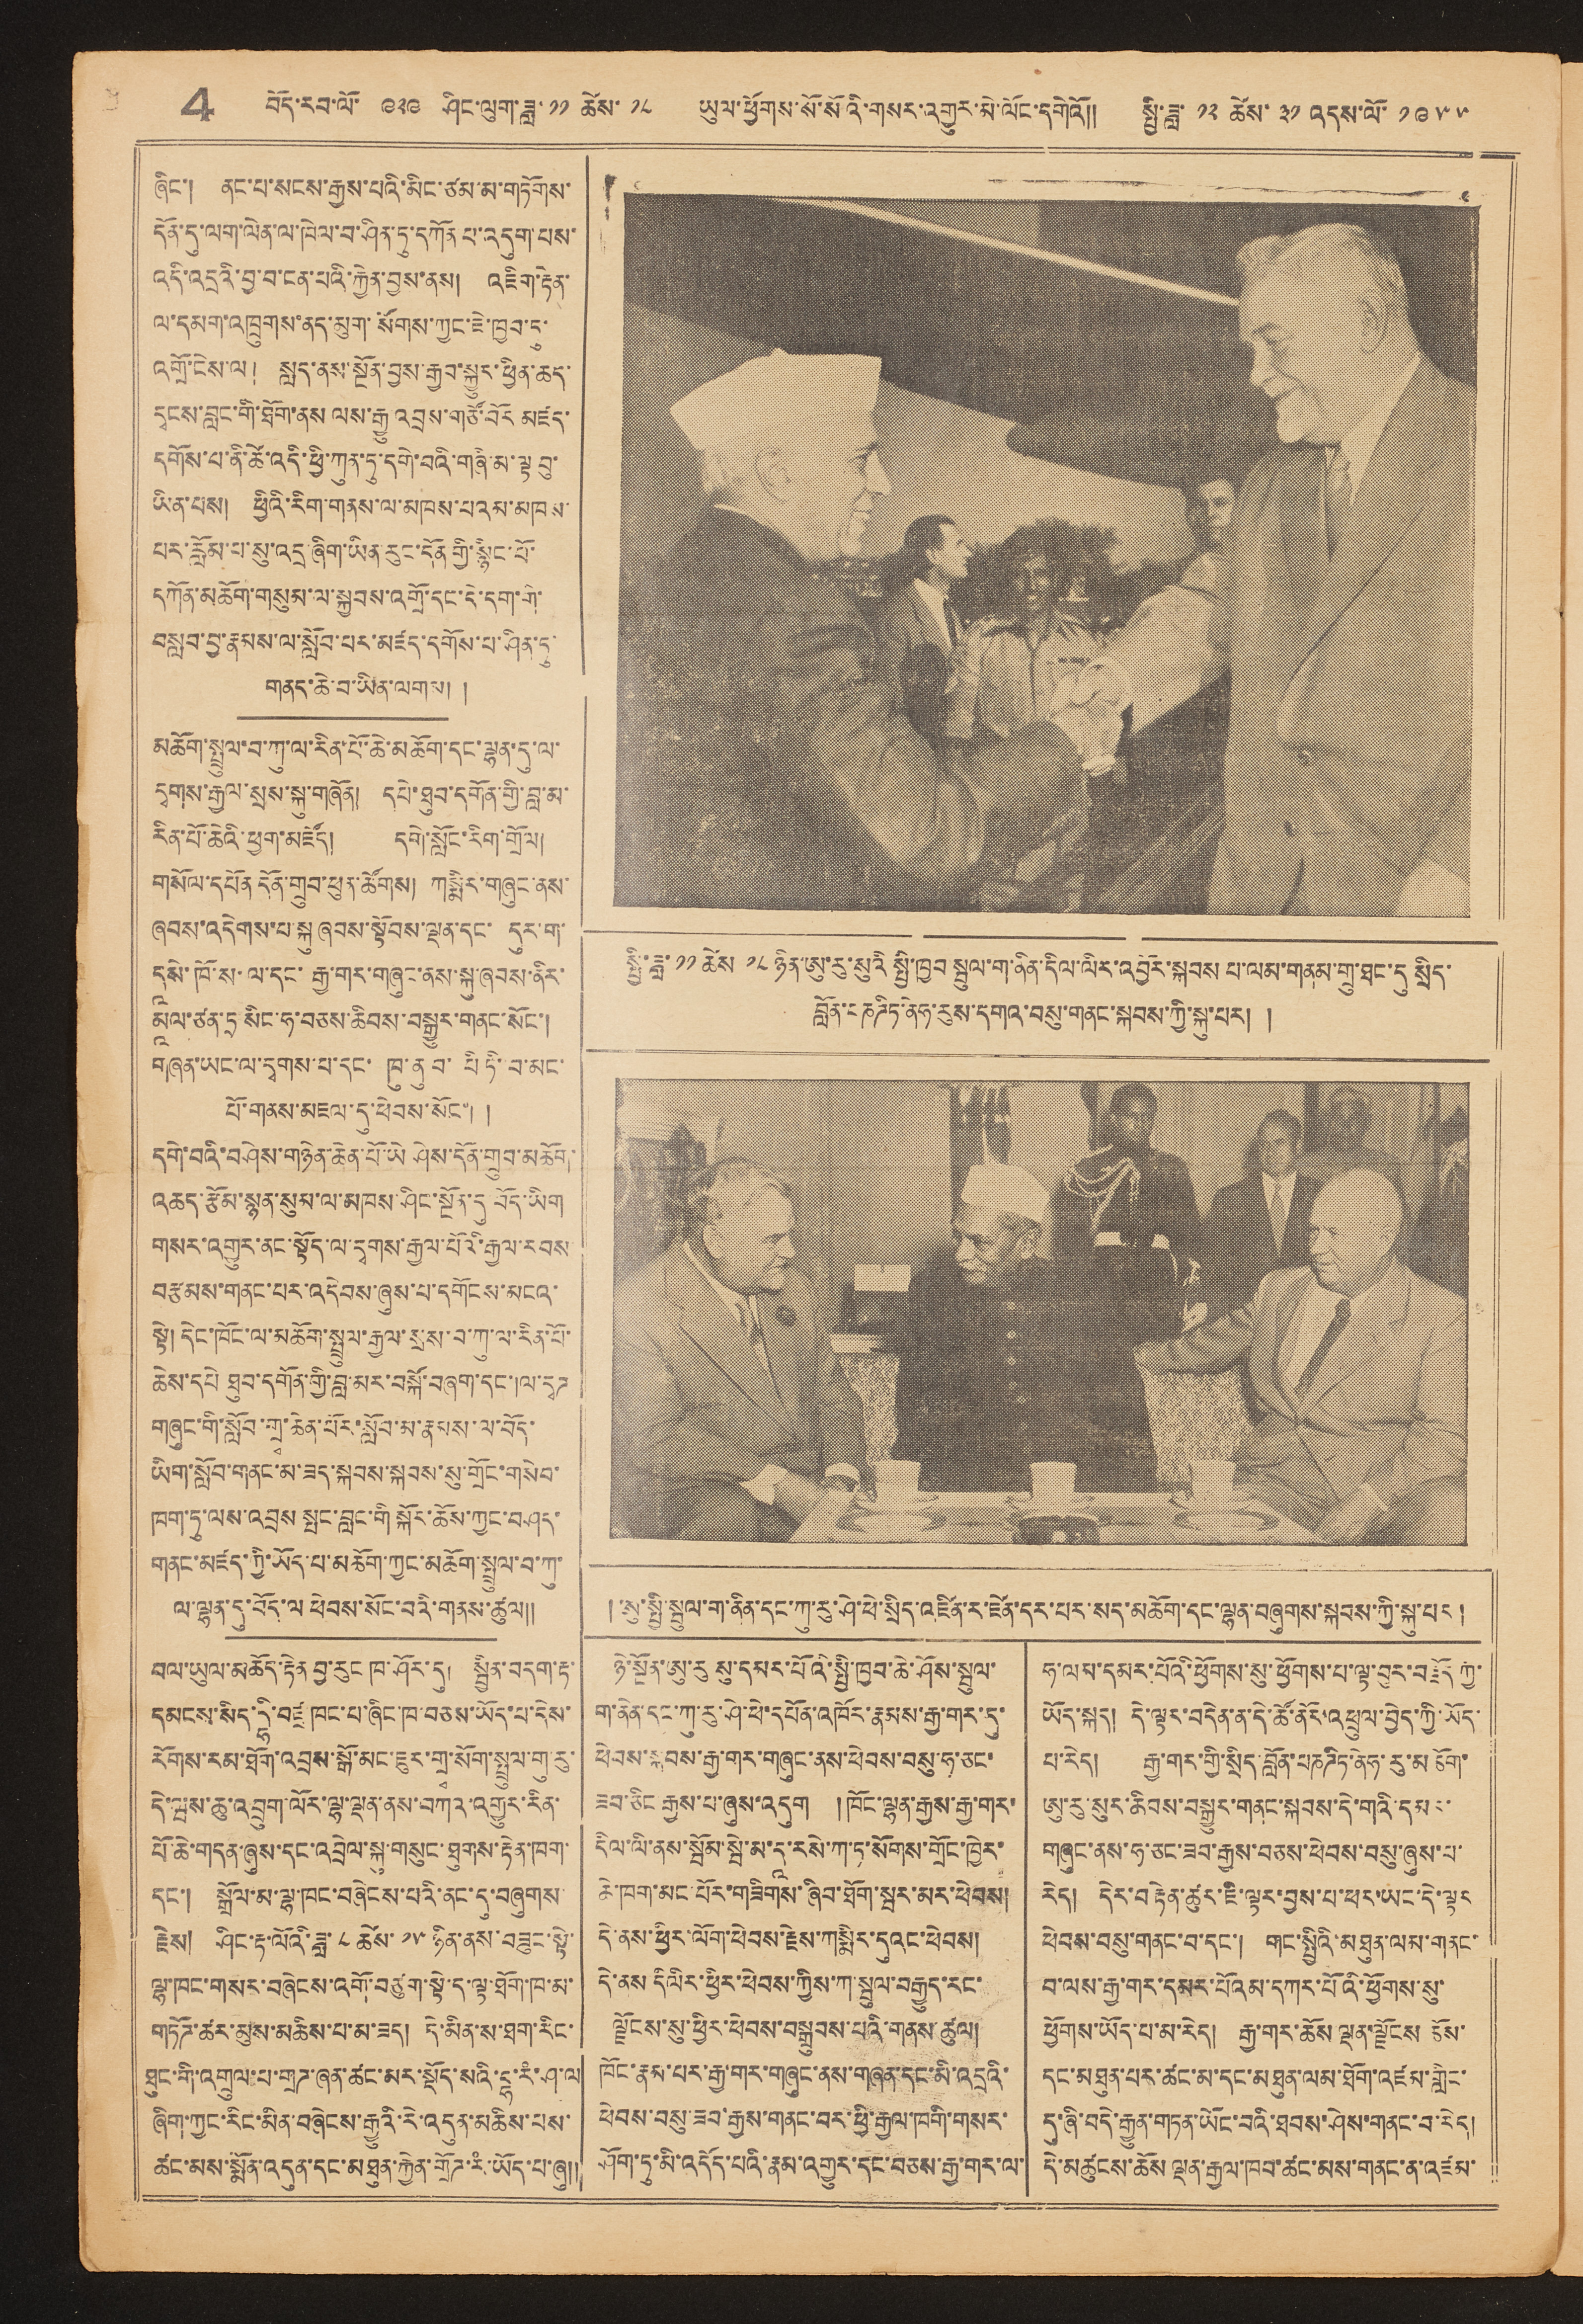4 བོད་རབ་ལོ་ ༩༢༩ ཤིང་ལུག་ཟླ་ ༡༡ ཚེས་ ༡༨ ཡུལ་ཕྱོགས་སོ་སོའི་གསར་འགྱུར་མེ་ལོང་དགེའོ།། སྤྱི་ཟླ་ ༡༢ ཚེས་ ༣༡ འདས་ལོ་ ༡༩༥༥
ཞིང་། ནང་པ་སངས་རྒྱས་པའི་མིང་ཙམ་མ་གཏོགས་
དོན་དུ་ལག་ལེན་ལ་ཁེལ་བ་ཤིན་ཏུ་དཀོན པ་འདུག་པས་
འདི་འདྲའི་བྱ་བ་ངན་པའི་རྐྱེན་བྱས་ནས། འཇིག་རྟེན་
ལ་དམག་འཁྲུགས་ནད་མུག་སོགས་ཀྱང་ཇེ་ཁྱབ་ཏུ་
འགྲོ་ངེས་ལ །  སླད་ནས་སྔོན་བྱས་རྒྱབ་སྐྱུར་ཕྱིན་ཆད་
དྭངས་བླང་གི་ཐོག་ནས ལས་རྒྱུ་འབྲས་གཙོ་བོར མཛད་
དགོས་པ་ནི་ཚེ་འདི་ཕྱི་ཀུན་ཏུ་དགེ་བའི་གཞི་མ་ལྟ བུ་
ཡིན་པས། ཕྱིའི་རིག་གནས་ལ་མཁས་པའམ་མཁས་
པར་རློམ་པ་སུ་འདྲ་ཞིག་ཡིན་རུང་དོན་གྱི་སྙིང་པོ་
དཀོན་མཆོག་གསུམ་ལ་སྐྱབས་འགྲོ་དང་དེ་དག་གི་
བསླབ་བྱ་རྣམས་ལ་སློབ་པར་མཛད་དགོས་པ་ཤིན་ཏུ་
གནད་ཆེ་བ་ཡིན་ལགས། །
མཆོག་སྤྲུལ་བ་ཀ་ལ་རིན་པོ་ཆེ་མཆོག་དང་ལྷན་དུ་ལ་
དྭགས་རྒྱལ་སྲས་སྐུ་གཞོན། དཔེ་ཐུབ་དགོན་གྱི་བླ་མ་
རིན་པོ་ཆེའི་ཕྱག་མཛོད།     དགེ་སློང་རིག་གྲོལ།
གསོལ་དཔོན དོན་གྲུབ་ཕུན་ཚོགས། ཀསྨིར་གཞུང་ནས་
ཞབས་འདེགས་པ་སྐུ་ཞབས་སྟོབས་ལྡན་དང་ དུར་ག་
དཱསེ་ཁོ་ས་ལ་དང་ རྒྱ་གར་གཞུང་ནས་སྐུ་ཞབས་ནིར་
མཱལ་ཙན་ཏྲ སིང་ཧ་བཅས་ཆིབས་བསྒྱུར་གནང་སོང་།
གཞན་ཡང་ལ་དྭགས་པ་དང་ ཁ་ནུ བ་ པི ཏི་བ་མང་
པོ་གནས་མཇལ་དུ་ཕེབས་སོང་། །
དགེ་བའི་བཤེས་གཉེན་ཆེན་པོ་ཡེ ཤེས་དོན་གྲུབ་མཆོག་
འཆད་རྩོམ་སྙན་སུམ་ལ་མཁས་ཤིང་སྔོན་དུ་བོད་ཡིག
གསར་འགྱུར་ནང་སྟོད་ལ་དྭགས་རྒྱལ་པོའི་རྒྱལ་རབས་
བརྩམས་གནང་པར་འདེབས་ཞུས་པ་དགོངས་མངའ་
སྟེ། དེང་ཁོང་ལ་མཆོག་སྤྲུལ་རྒྱལ་སྲས་བ་ཀུ་ལ་རིན་པོ་
ཆེས་དཔེ ཐུབ་དགོན་གྱི་བླ་མར་བསྐོ་བཞག་དང་།ལ་དྭཌ
གཞུང་གི་སློབ་གྲྭ་ཆེན་པོར་སློབ་མ་རྣམས་ལ་བོད་
ཡིག་སློབ་གནང་མ་ཟད་སྐབས་སྐབས་སུ་གྲོང་གསེབ་
ཁག་ཏུ་ལས་འབྲས སྤང་བླང་གི སྐོར་ཆོས་ཀྱང་བཤད་
གནང་མཛད་ཀྱི་ཡོད་པ་མཆོག་ཀྱང་མཆོག་སྤྲུལ་བ་ཀུ་
ལ་ལྷན་དུ་བོད་ལ ཕེབས་སོང་བའི་གནས་ཚུལ།།
བལ་ཡུལ་མཆོད་རྟེན བྱ་རུང ཁ་ཤོར་དུ། སྦྱིན་བདག་རྟ་
དམངས་སིད་དྷི་བཛྲ ཁང་པ་ཞིང་ཁ་བཅས་ཡོད་པ་དེས་
རོགས་རམ་ཐོག་འབྲས་སྒོ་མང་ཇུར་གྲྭ་སོག་སྤྲུལ་གུ་རུ་
དེ་ཝས་ཆུ་འབྲུག་ལོར་ལྷ་ལྡན་ནས་བཀའ་འགྱུར་རིན་
པོ་ཆེ་གདན་ཞུས་དང་འབྲེལ་སྐུ་གསུང་ཐུགས་རྟེན་ཁག་
དང་། སྒྲོལ་མ་ལྷ་ཁང་བཞེངས་པའི་ནང་དུ་བཞུགས་
རྗེས། ཤིང་རྟ་ལོའི་ཟླ་ ༨ ཚེས་ ༡༥ ཉིན་ནས་བཟུང་སྟེ་
ལྷ་ཁང་གསར་བཞེངས་འགོ་བཙུག་སྟེ་ད་ལྟ་ཐོག་ཁ་མ་
གཏོཌ་ཚར་མུས་མཆིས་པ་མ་ཟད། དེ་མིན་ས་ཐག་རིང་
ཐུང་གི་འགྲུལ་པ་གྲཌ་ཞན་ཚང་མར་སྡོད་སའི་དྷ་རཾ་ཤ་ལ་
ཞིག་ཀྱང་རིང་མིན་བཞེངས་རྒྱུའི་རེ་འདུན་མཆིས་པས་
ཚང་མས་སྨོན་འདུན་དང་མཐུན་རྐྱེན་གྲོཌ་རཾ་ཡོད་པ་ཞུ།།
སྤྱི་ཟླ་ ༡༡ ཚེས་ ༡༨ ཉིན་ཨུ་རུ་སུའི སྤྱི་ཁྱབ སྦུལ་ག་ནིན་དིལ་ལིར་འབྱོར་སྐབས པ་ལམ་གནམ་གྲུ་ཐང་དུ སྲིད་
བློན་པཎཌིཏ་ནེཧ་རུས་དགའ་བསུ་གནང་སྐབས་ཀྱི་སྐུ་པར། །
། ཨུ་སྤྱི་སྦུལ་ག་ནིན་དང་ཀུ་རུ་ཤེ་ཕེ་སྲིད་འཛིན་ར་ཛེན་དར་པར་སད་མཆོག་དང་ལྷན་བཞུགས་སྐབས་ཀྱི་སྐུ་པར།
ཉེ་སྔོན་ཨུ་རུ སུ་དམར་པོའི་སྤྱི་ཁྱབ་ཆེ་ཤོས་སྦུལ་
ག་ནེན་དང་ཀུ་རུ་ཤེ་ཕེ་དཔོན་འཁོར་རྣམས་རྒྱ་གར་དུ་
ཕེབས་སྐབས་རྒྱ་གར་གཞུང་ནས་ཕེབས་བསུ་ཧ་ཅང་
ཟབ་ཅིང་རྒྱས་པ་ཞུས་འདུག །ཁོང་ལྷན་རྒྱས་རྒྱ་གར་
དིལ་ལི་ནས་སྦོམ་སྦེ་མ་དཱ་རསེ་ཀ་ཏ་སོགས་གྲོང་ཁྱེར་
ཆེ་ཁག་མང་པོར་གཟིགས་ཞིབ་ཐོག་སྦར་མར་ཕེབས།
དེ་ནས་ཕྱིར་ལོག་ཕེབས་རྗེས་ཀསྨིར་དུའང་ཕེབས།
དེ་ནས དིལིར་ཕྱིར་ཕེབས་ཀྱིས་ཀ་སྦུལ་བརྒྱུད་རང་
ལྗོངས་སུ་ཕྱིར་ཕེབས་བསྒྲུབས་པའི་གནས་ཚུལ།
ཁོང་རྣམ་པར་རྒྱ་གར་གཞུང་ནས་གཞན་དང་མི་འདྲའི་
ཕེབས་བསུ་ཟབ་རྒྱས་གནང་བར་ཕྱི་རྒྱལ་ཁགི་གསར་
ཤོག་ཏུ་མི་འདོད་པའི་རྣམ་འགྱུར་དང་བཅས་རྒྱ་གར་ལ་
ཧ་ལམ་དམར་པོའི་ཕྱོགས་སུ་ཕྱོགས་པ་ལྟ་བུར་བརྗོད ཀྱི་
ཡོད་སྐད། དེ་ལྟར་བདེན་ན་དེ་ཚོ་ནོར་འཕྲུལ་བྱེད་ཀྱི་ཡོད་
པ་རེད།     རྒྱ་གར་གྱི་སྲིད་བློན་པཎཌིཏ་ནེཧ་རུ་མཆོག་
ཨུ་རུ་སུར་ཆིབས་བསྒྱུར་གནང་སྐབས་དེ་གའི་དམར་
གཞུང་ནས་ཧ་ཅང་ཟབ་རྒྱས་བཅས་ཕེབས་བསུ་ཞུས་པ་
རེད།   དེར་བརྟེན་ཚུར་ཇི་ལྟར་བྱས་པ་ཕར་ཡང་དེ་ལྟར
ཕེབས་བསུ་གནང་བ་དང་། གང་སྤྱིའི་མཐུན་ལམ་གནང་
བ་ལས་རྒྱ་གར་དམར་པོའམ་དཀར་པོའི་ཕྱོགས་སུ་
ཕྱོགས་ཡོད་པ་མ་རེད། རྒྱ་གར་ཆོས་ལྡན་ལྗོངས ཆོས་
དང་མཐུན་པར་ཚང་མ་དང་མཐུན་ལམ་ཐོག་འཛམ་གླིང་
དུ་ཞི་བདེ་རྒྱུན་གཏན་ཡོང་བའི་ཐབས་ཤེས་གནང་བ་རེད།
དེ་མཚུངས་ཆོས་ལྡན་རྒྱལ་ཁབ་ཚང་མས་གནང་ན་འཛམ་
